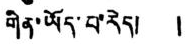གིན་ཡོད་པ་རེད། །
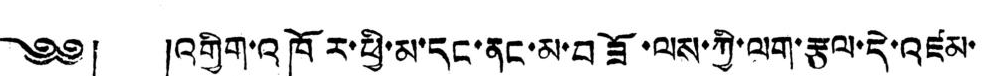༄༅། །འགྱིག་འཁོར་ཕྱི་མ་དང་ནང་མ་བཟོ་ལས་ཀྱི་ལག་རྩལ་དེ་འཛམ་
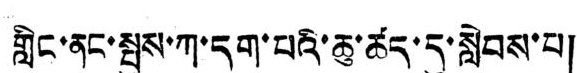གླིང་ནང་སྤུས་ཀ་དག་པའི་ཆུ་ཚད་དུ་སླེབས་པ།
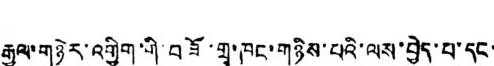རྒྱལ་གཉེར་འགྱིག་གི་བཟོ་གྲྭ་ཁང་གཉིས་པའི་ལས་བྱེད་པ་དང་
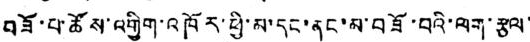བཟོ་པ་ཚོས་འགྱིག་འཁོར་ཕྱི་མ་དང་ནང་མ་བཟོ་བའི་ལག་རྩལ་
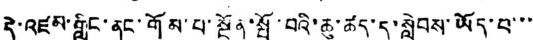དེ་འཛམ་གླིང་ནང་གོམ་པ་སྔོན་སྤོ་བའི་ཆུ་ཚད་དུ་སླེབས་ཡོད་པ་་་
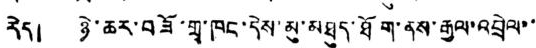རེད། ཉེར་ཆར་བཟོ་གྲྭ་ཁང་དེས་མུ་མཐུད་ཐོག་ནས་རྒྱལ་འབྲེལ་་
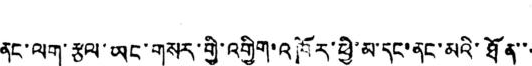ནང་ལག་རྩལ་ཡང་གསར་གྱི་འགྱིག་འཁོར་ཕྱེ་མ་དང་ནང་མའི་ཐོན་་
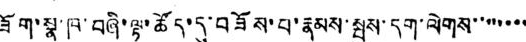ཟོག་སྣ་ཁ་བཞི་ལྟ་ཚོད་དུ་བཟོས་པ་རྣམས་སྤུས་དག་ལེགས་་་་་་་་
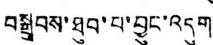བསྒྲུབས་ཐུབ་པ་བྱུང་འདུག
